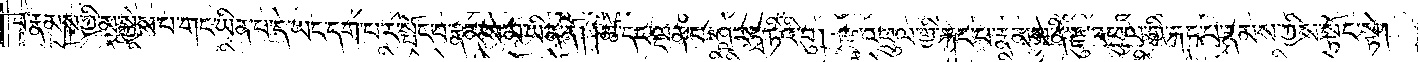བ་རྣམས་ཀྱི་མ་སྐྱེས་པ་གང་ཡིན་པ་དེ་ཡང་དག་པར་སྤོང་བ་རྣམས་མ་ཡིན་ནོ། །ཚེ་དང་ལྡན་པ་ཤཱ་ར་དྭ་ཏིའི་བུ། རྫུ་འཕྲུལ་གྱི་རྐང་པ་རྣམས་ནི་རྫུ་འཕྲུལ་གྱི་རྐང་པ་རྣམས་ཀྱིས་སྟོང་སྟེ།
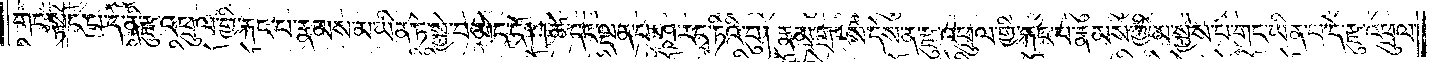གང་སྟོང་པ་དེ་ནི་རྫུ་འཕྲུལ་གྱི་རྐང་པ་རྣམས་མ་ཡིན་ཏེ་སྐྱེ་བ་མེད་དོ། །ཚེ་དང་ལྡན་པ་ཤཱ་ར་དྭ་ཏིའི་བུ། རྣམས་གྲངས་དེས་ན་རྫུ་འཕྲུལ་གྱི་རྐང་པ་རྣམས་ཀྱི་མ་སྐྱེས་པ་གང་ཡིན་པ་དེ་རྫུ་འཕྲུལ་
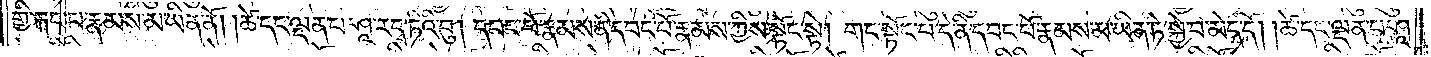གྱི་རྐང་པ་རྣམས་མ་ཡིན་ནོ། །ཚེ་དང་ལྡན་པ་ཤཱ་ར་དྭ་ཏིའི་བུ། དབང་པོ་རྣམས་ནི་དབང་པོ་རྣམས་ཀྱིས་སྟོང་སྟེ། གང་སྟོང་པ་དེ་ནི་དབང་པོ་རྣམས་མ་ཡིན་ཏེ་སྐྱེ་བ་མེད་དོ། །ཚེ་དང་ལྡན་པ་ཤཱ་
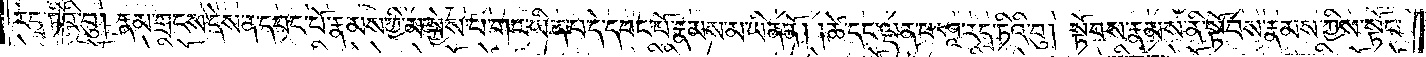ར་དྭ་ཏིའི་བུ། རྣམ་གྲངས་དེས་ན་དབང་པོ་རྣམས་ཀྱི་མ་སྐྱེས་པ་གང་ཡིན་པ་དེ་དབང་པོ་རྣམས་མ་ཡིན་ནོ། །ཚེ་དང་ལྡན་པ་ཤཱ་ར་དྭ་ཏིའི་བུ། སྟོབས་རྣམས་ནི་སྟོབས་རྣམས་ཀྱིས་སྟོང་
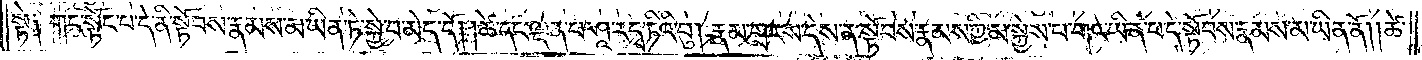སྟེ། གང་སྟོང་པ་དེ་ནི་སྟོང་པ་རྣམས་མ་ཡིན་ཏེ་སྐྱེ་བ་མེད་དོ། །ཚེ་དང་ལྡན་པ་ཤཱ་ར་དྭ་ཏིའི་བུ། རྣམ་གྲངས་དེས་ན་སྟོབས་རྣམས་ཀྱི་མ་སྐྱེས་པ་གང་ཡིན་པ་དེ་སྟོབས་རྣམས་མ་ཡིན་ནོ། །ཚེ་
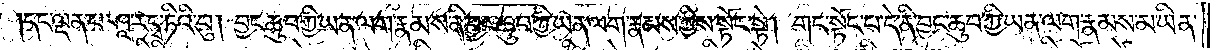དང་ལྡན་པ་ཤཱ་ར་དྭ་ཏིའི་བུ། བྱང་ཆུབ་ཀྱི་ཡན་ལག་རྣམས་ནི་བྱང་ཆུབ་ཀྱི་ཡན་ལག་རྣམས་ཀྱིས་སྟོང་སྟེ། གང་སྟོང་པ་དེ་ནི་བྱང་ཆུབ་ཀྱི་ཡན་ལག་རྣམས་མ་ཡིན་
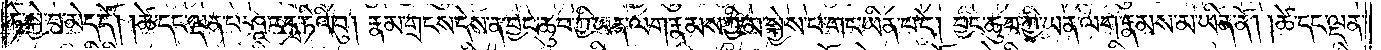ཏེ་སྐྱེ་བ་མེད་དོ། །ཚེ་དང་ལྡན་པ་ཤཱ་ར་དྭ་ཏིའི་བུ། རྣམ་གྲངས་དེས་ན་བྱང་ཆུབ་སེམས་ཀྱི་ཡན་ལག་རྣམས་ཀྱི་མ་སྐྱེས་པ་གང་ཡིན་པ་དེ། བྱང་ཆུབ་ཀྱི་ཡན་ལག་རྣམས་མ་ཡིན་ནོ། །ཚེ་དང་ལྡན་
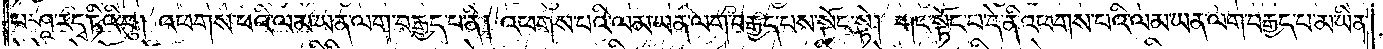པ་ཤཱ་ར་དྭ་ཏིའི་བུ། འཕགས་པའི་ལམ་ཡན་ལག་བརྒྱད་པ་ནི། འཕགས་པའི་ལམ་ཡན་ལག་བརྒྱད་པས་སྟོང་སྟེ། གང་སྟོང་པ་དེ་ནི་འཕགས་པའི་ལམ་ཡན་ལག་བརྒྱད་པ་མ་ཡིན་
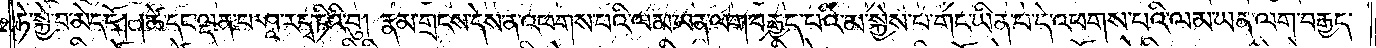ཏེ་སྐྱེ་བ་མེད་དོ། །ཚེ་དང་ལྡན་པ་ཤཱ་ར་དྭ་ཏིའི་བུ། རྣམ་གྲངས་དེས་ན་འཕགས་པའི་ལམ་ཡན་ལག་བརྒྱད་པའི་མ་སྐྱེས་པ་གང་ཡིན་པ་དེ་འཕགས་པའི་ལམ་ཡན་ལག་བརྒྱད་
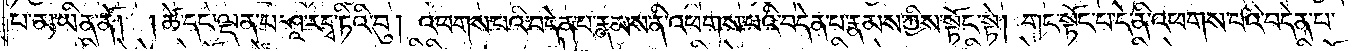པ་མ་ཡིན་ནོ། །ཚེ་དང་ལྡན་པ་ཤཱ་ར་དྭ་ཏིའི་བུ། འཕགས་པའི་བདེན་པ་རྣམས་ནི་འཕགས་པའི་བདེན་པ་རྣམས་ཀྱིས་སྟོང་སྟེ། གང་སྟོང་པ་དེ་ནི་འཕགས་པའི་བདེན་པ་
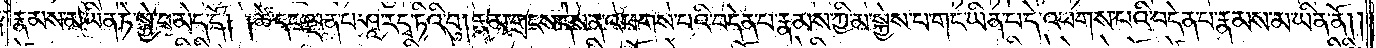རྣམས་མ་ཡིན་ཏེ་སྐྱེ་བ་མེད་དོ། །ཚེ་དང་ལྡན་པ་ཤཱ་ར་དྭ་ཏིའི་བུ། རྣམ་གྲངས་དེས་ན་འཕགས་པའི་བདེན་པ་རྣམས་ཀྱི་མ་སྐྱེས་པ་གང་ཡིན་པ་དེ་འཕགས་པའི་བདེན་པ་རྣམས་མ་ཡིན་ནོ། །
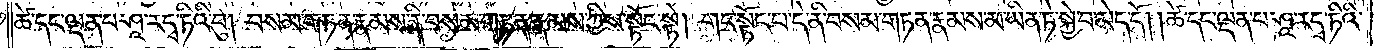ཚེ་དང་ལྡན་པ་ཤཱ་ར་དྭ་ཏིའི་བུ། བསམ་གཏན་རྣམས་ནི་བསམ་གཏན་རྣམས་ཀྱིས་སྟོང་སྟེ། གང་སྟོང་པ་དེ་ནི་བསམ་གཏན་རྣམས་མ་ཡིན་ཏེ་སྐྱེ་བ་མེད་དོ། །ཚེ་དང་ལྡན་པ་ཤཱ་ར་དྭ་ཏིའི་
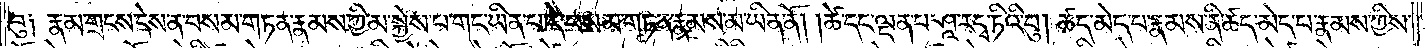བུ༏ རྣམ་གྲངས་དེས་ན་བསམ་གཏན་རྣམས་ཀྱི་མ་སྐྱེས་པ་གང་ཡིན་པ་དེ་བསམ་གཏན་རྣམས་མ་ཡིན་ནོ། །ཚེ་དང་ལྡན་པ་ཤཱ་ར་དྭ་ཏིའི་བུ། ཚད་མེད་པ་རྣམས་ནི་ཚད་མེད་པ་རྣམས་ཀྱིས་
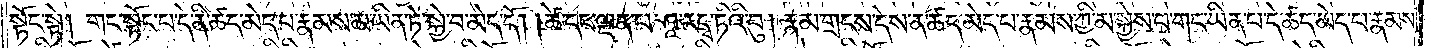སྟོང་སྟེ། གང་སྟོང་པ་དེ་ནི་ཚད་མེད་པ་རྣམས་མ་ཡིན་ཏེ་སྐྱེ་བ་མེད་དོ། །ཚེ་དང་ལྡན་པ་ཤཱ་ར་དྭ་ཏིའི་བུ། རྣམ་གྲངས་དེས་ན་ཚད་མེད་པ་རྣམས་ཀྱི་མ་སྐྱེས་པ་གང་ཡིན་པ་དེ་ཚད་མེད་པ་རྣམས་
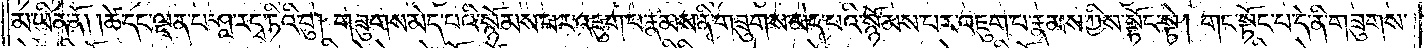མ་ཡིན་ནོ། །ཚེ་དང་ལྡན་པ་ཤཱ་ར་དྭ་ཏིའི་བུ། གཟུགས་མེད་པའི་སྙོམས་པར་འཇུག་པ་རྣམས་ནི་གཟུགས་མེད་པའི་སྙོམས་པར་འཇུག་པ་རྣམས་ཀྱིས་སྟོང་སྟེ། གང་སྟོང་པ་དེ་ནི་གཟུགས་
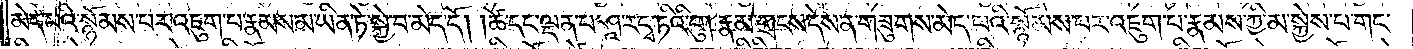མེད་པའི་སྙོམས་པར་འཇུག་པ་རྣམས་མ་ཡིན་ཏེ་སྐྱེ་བ་མེད་དོ། །ཚེ་དང་ལྡན་པ་ཤཱ་ར་དྭ་ཏིའི་བུ། རྣམ་གྲངས་དེས་ན་གཟུགས་མེད་པའི་སྙོམས་པར་འཇུག་པ་རྣམས་ཀྱི་མ་སྐྱེས་པ་གང་
